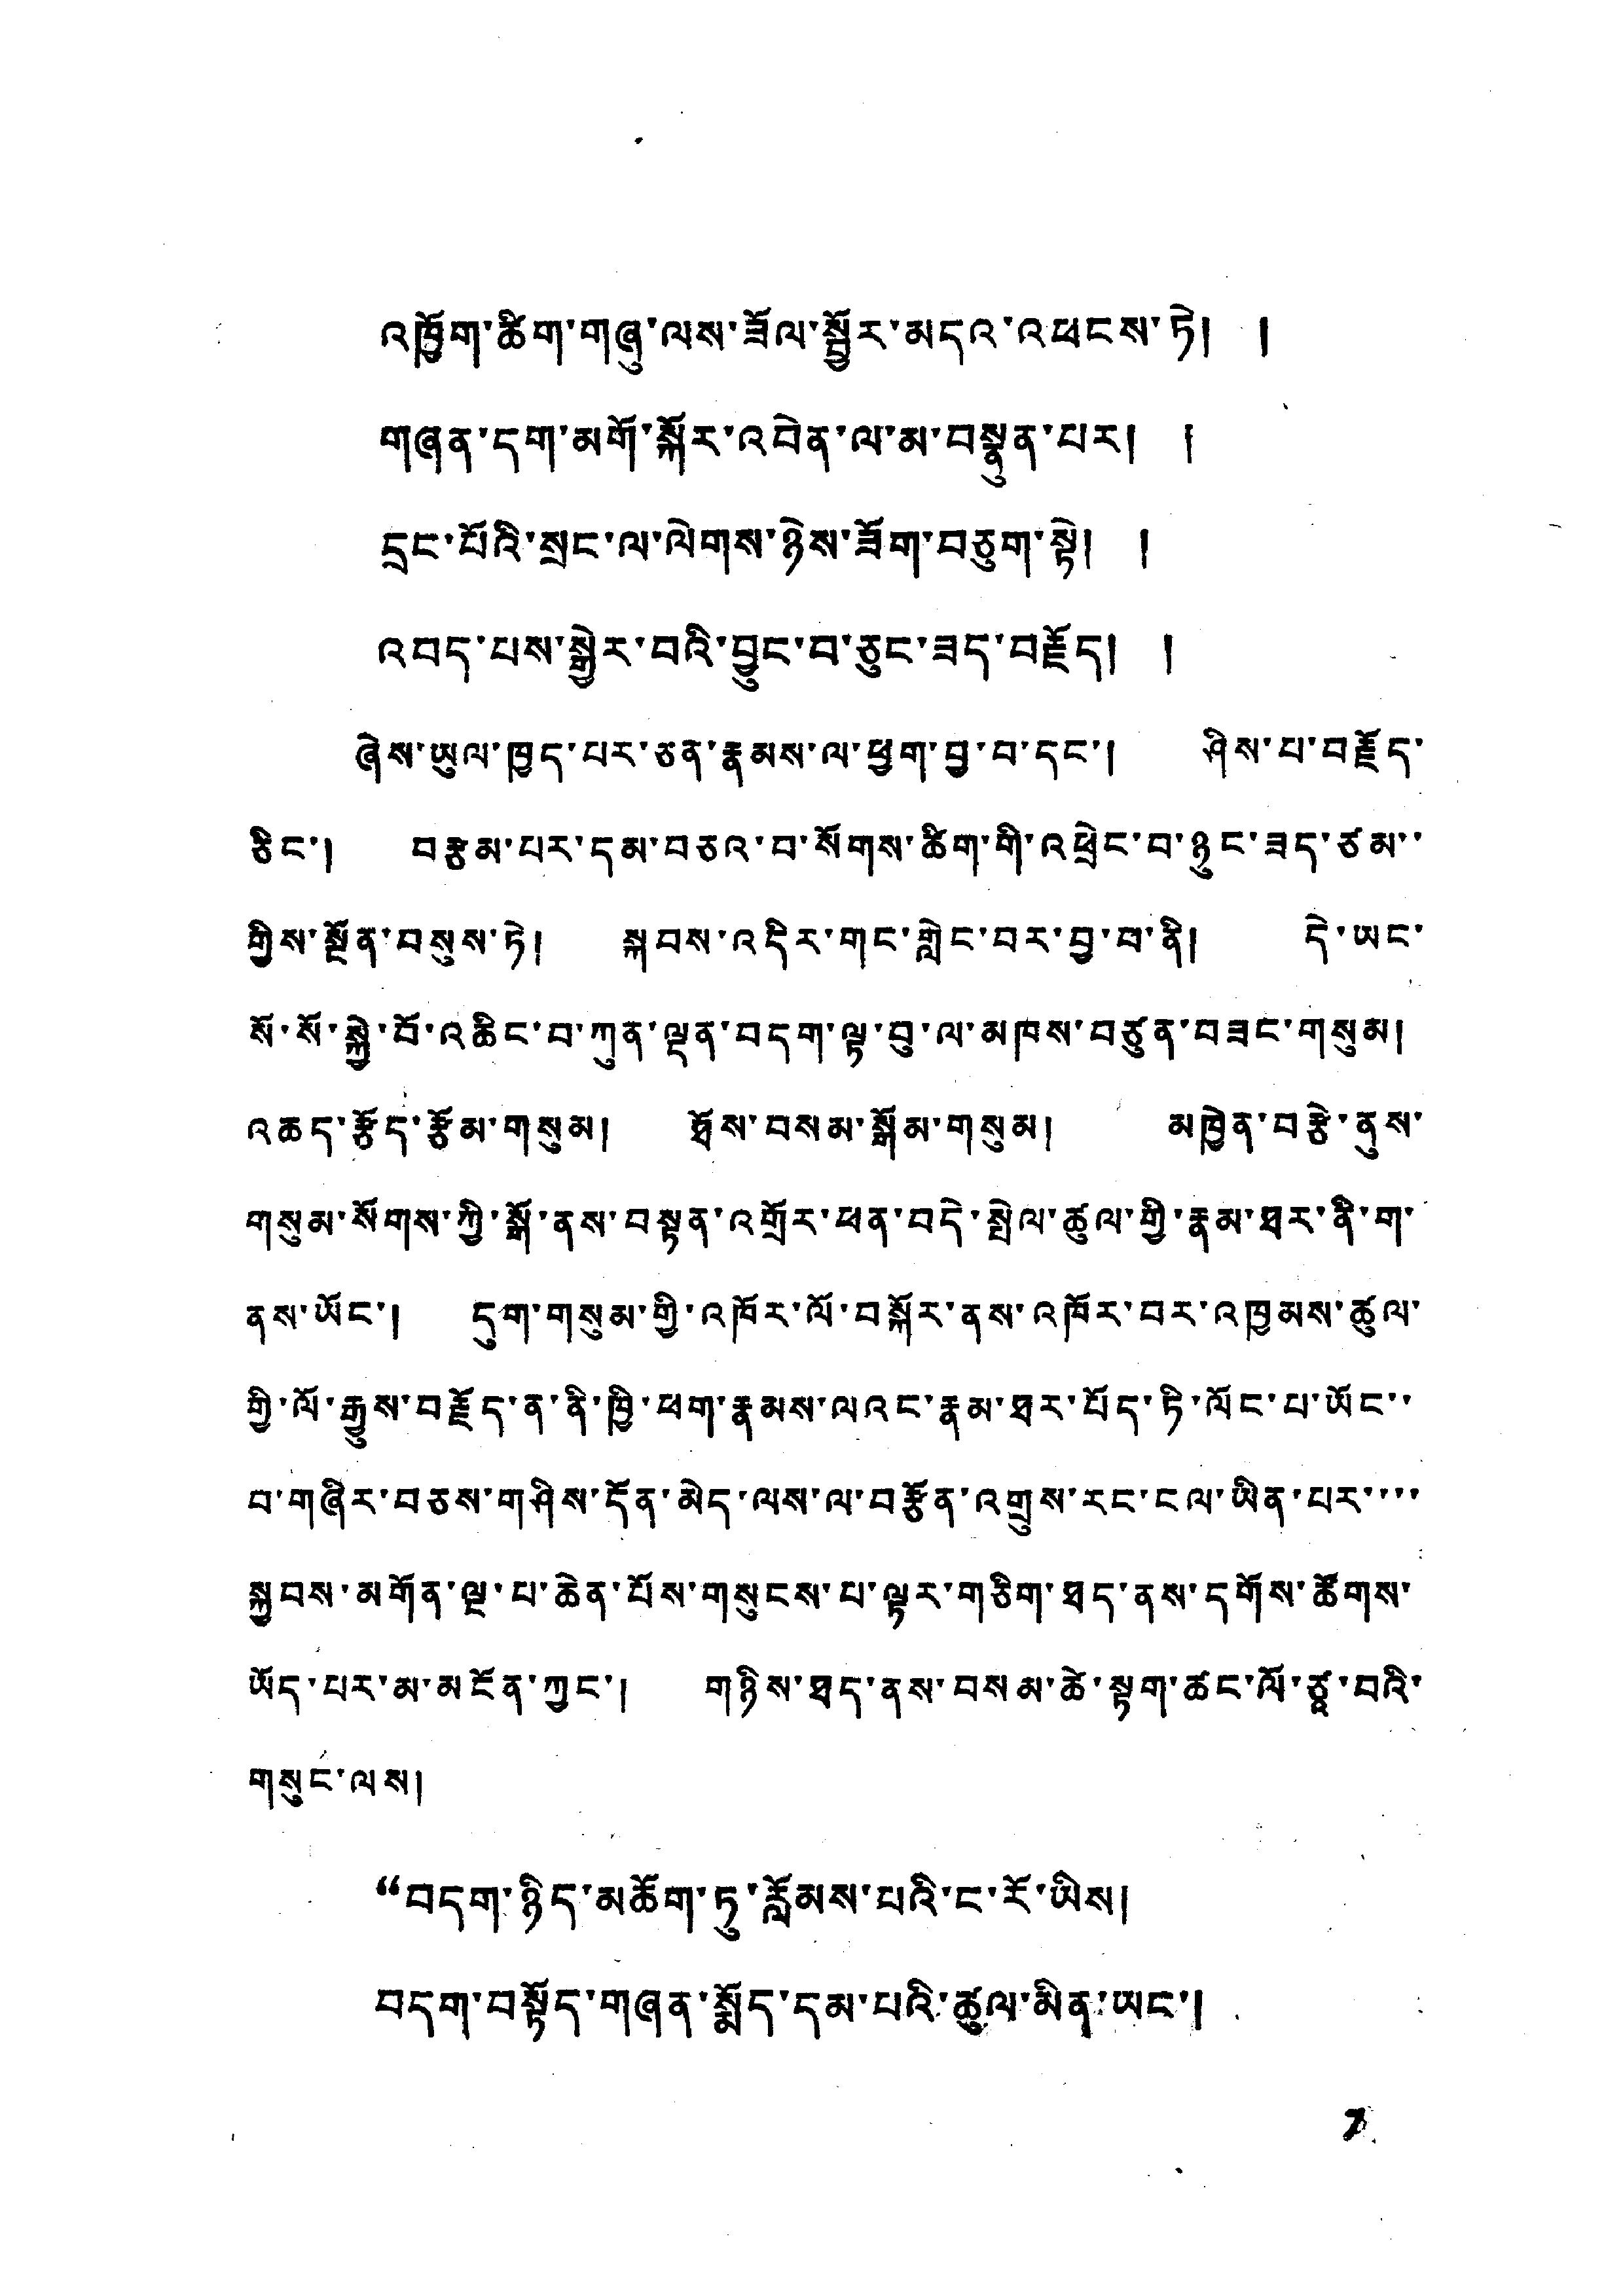འཁྱོག་ཚིག་གཞུ་ལས་ཟོལ་སྦྱོར་མདའ་འཕངས་ཏེ། །
གཞན་དག་མགོ་སྐོར་འབེན་ལ་མ་བསྣུན་པར། །
དྲང་པོའི་སྲང་ལ་ལེགས་ཉེས་ཟོག་བཅུག་སྟེ། །
འབད་པས་སྒྱེར་བའི་བྱུང་བ་ཅུང་ཟད་བརྗོད། །
ཞེས་ཡུལ་ཁྱད་པར་ཅན་རྣམས་ལ་ཕྱག་བྱ་བ་དང་། ཤིས་པ་བརྗོད་
ཅིང་། བརྩམ་པར་དམ་བཅའ་བ་སོགས་ཚིག་གི་འཕྲེང་བ་ཉུང་ཟད་ཙམ་་
གྱིས་སྔོན་བསུས་ཏེ་། སྐབས་འདིར་གང་གླེང་བར་བྱ་བ་ནི། དེ་ཡང་
སོ་སོ་སྐྱེ་བོ་འཆིང་བ་ཀུན་ལྡན་བདག་ལྟ་བུ་ལ་མཁས་བཙུན་བཟང་གསུམ།
འཆད་རྩོད་རྩོམ་གསུམ། ཐོས་བསམ་སྒོམ་གསུམ། མཁྱེན་བརྩེ་ནུས་
གསུམ་སོགས་ཀྱི་སྒོ་ནས་བསྟན་འགྲོར་ཕན་བདེ་སྤེལ་ཚུལ་གྱི་རྣམ་ཐར་ནི་ག་
ནས་ཡོང་། དུག་གསུམ་གྱི་འཁོར་ལོ་བསྐོར་ནས་འཁོར་བར་འཁྱམས་ཚུལ་
གྱི་ལོ་རྒྱུས་བརྗོད་ན་ནི་ཁྱི་ཕག་རྣམས་ལའང་རྣམ་ཐར་པོད་ཏི་ལོང་པ་ཡོང་་
བ་གཞིར་བཅས་གཤིས་དོན་མེད་ལས་ལ་བརྩོན་འགྲུས་རང་ངལ་ཡིན་པར་་་་
སྐྱབས་མགོན་ལྔ་པ་ཆེན་པོས་གསུངས་པ་ལྟར་གཅིག་ཐད་ནས་དགོས་ཚོགས་
ཡོད་པར་མ་མངོན་ཀྱང་། གཉིས་ཐད་ནས་བསམ་ཚེ་སྟག་ཚང་ལོ་ཙཱ་བའི་
གསུང་ལས།
"བདག་ཉིད་མཆོག་ཏུ་རློམས་པའི་ང་རོ་ཡིས།
བདག་བསྟོད་གཞན་སྨོད་དམ་པའི་ཚུལ་མིན་ཡང་།
7
